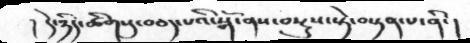།   དེ་ཉིད་ཚིགསུ་བཅད་པའི་སྒོ་ནས་བསྡུས་ཏེ་བསྟན་པ་ནི་།
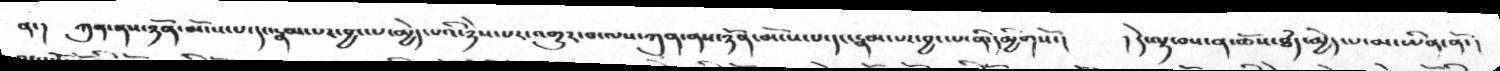ན་།   ཀུན་ནས་ཉོན་མོངས་པ་དང་རྣམ་པར་བྱང་པ་མྱེད་པའི་ཉེས་པར་འགྱུར་བ་ལས་ཀུན་ནས་ཉོན་མོངས་པ་དང་རྣམ་པར་བྱང་པ་ནི་དམྱིགསོ་།   ། དེ་ལྟ་བས་ན་ཆོས་ཐཾད་མྱེད་པ་མ་ཡིན་ནོ་།
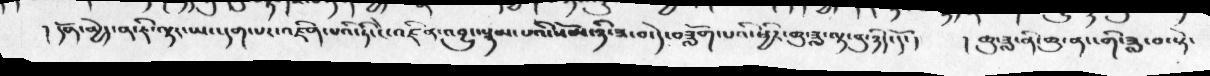། དོན་མྱེད་ན་ཇི་ལྟར་ཡང་དག་པར་འཛིན་པའི་ཏི་ངེ་འཛིན་འབྱུང་སྙམ་པའི་སོམ་ཉི་ཟ་བ་དེ་བཟློག་པའི་ཕྱིར་ཆུ་ཟླ་ལྟ་བུ་ཉིད་དོ་།  ། ཆུ་ཟླ་ནི་ཆུ་ནང་གི་ཟླ་བ་སྟེ་
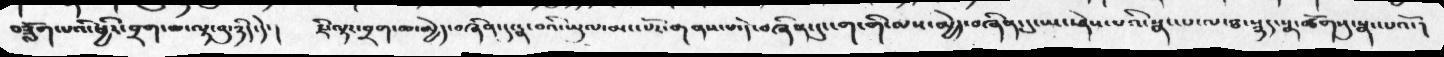བཟློག་པའི་ཕྱིར་བྲག་ཆ་ལྟ་བུ་ཉིད་དེ་།  ཇི་ལྟར་བྲག་ཆ་མྱེད་བཞིན་དུ་རྣ་བའི་ཡུལ་མང་པོར་གནས་པ་དེ་བཞིན་དུ་ངག་གི་ལས་མྱེད་བཞིན་དུ་ཡང་ཤེས་པའི་སྣང་པ་ལ་ཐ་སྙད་སྣ་ཚོགསུ་སྣང་པའོ་།
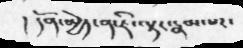། དོན་མྱེད་ན་ཇི་ལྟར་རྣམ་པར་
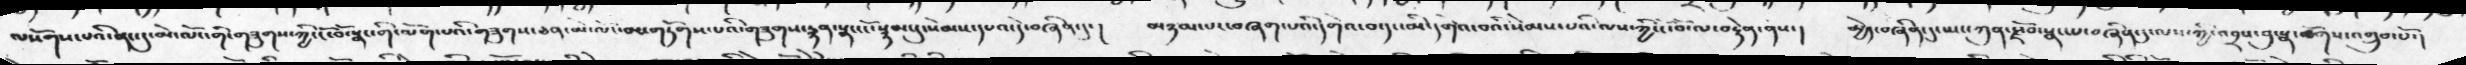ལསོགས་པའི་ནང་དུ་མེ་ལོང་གི་གཟུགས་ཀྱི་ངོ་བོ་སྣང་གི་ལོག་པའི་གཟུགས་ཅན་མེ་ལོང་མ་གཏོགས་པའི་གཟུགས་རྙན་སྣང་ངོ་སྙམ་དུ་སེམས་དཔའ་དེ་བཞིན་དུ་།  མཉམ་པར་བཞག་པའི་དགེའ་བ་དང་མི་དགེའ་བའི་སེམས་པའི་ལས་ཀྱི་ངོ་བོ་ལ་བརྟེན་ནས་།  མྱེད་བཞིན་དུ་ཡང་ཀུན་རྫོབ་སྣང་པ་བཞིན་དུ་ལས་ཀྱི་འབྲས་བུ་སྣ་ཚོགས་འགྲུབ་པོ་།
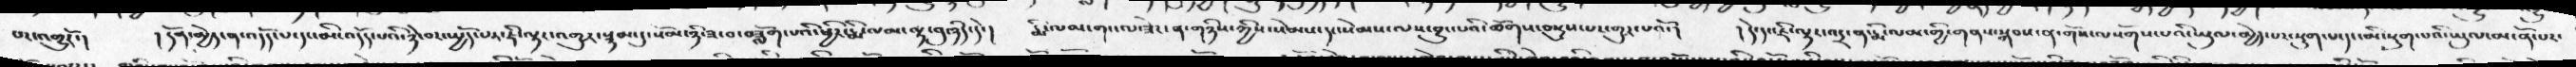པར་འགྱུརོ་།    ། དོན་མྱེད་ན་འདོད་པ་དང་མི་འདོད་པའི་ཉེ་བར་སྤྱོད་པར་ཇི་ལྟར་འགྱུར་སྙམ་དུ་སོམ་ཉི་ཟ་བ་བཟློག་པའི་ཕྱིར་རྨི་ལམ་ལྟ་བུ་ཉིད་དེ་།   རྨི་ལམ་གང་ལ་ཟེར་ན་གཉིས་ཀྱིས་སེམས་དང་སེམས་ལས་བྱུང་པའི་ཚོགས་བསྡུས་པར་གྱུར་པའོ་།    ། དེ་དང་ཇི་ལྟར་འདྲ་ན་རྨི་ལམ་གྱི་གནས་སྐབས་ན་གོས་ལ་སོགས་པའི་ཡུལ་མྱེད་པར་སྡུག་པ་དང་མི་སྡུག་པའི་ཡུལ་མངོན་པར་
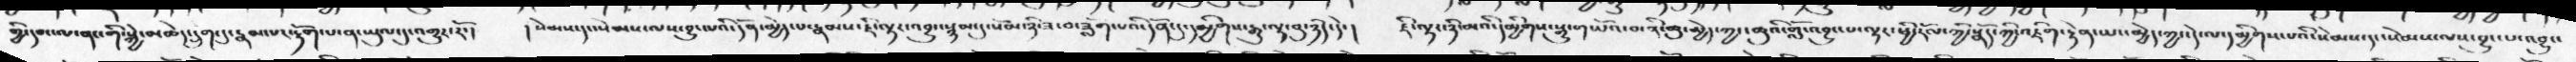གྱི་དབང་ལ་ནང་གི་སྐྱེ་མཆེད་དྲུག་དུ་རྣམ་པར་རྟོག་པ་ན་ཡུལ་དུ་འགྱུར་རོ་།    །སེམས་དང་སེམས་ལས་བྱུང་པའི་དོན་མྱེད་པ་རྣམ་པ་ཇི་ལྟར་འབྱུང་སྙམ་དུ་སོམ་ཉི་ཟ་བ་ཟློག་པའི་དོན་དུ་དམྱིགས་རྒྱུ་ལྟ་བུ་ཉིད་དེ་།    ཇི་ལྟར་ཉི་མའི་དམྱིགས་རྒྱུ་གཡོའ་བ་ནི་ཆུ་མྱེད་ཀྱང་ཆུའི་གློ་འབྱུང་པ་ལྟར་ཕྱི་རོལ་ཀྱི་སྣོད་ཀྱི་འཇིག་རྟེན་ཡང་མྱེད་ཀྱང་དེ་ལ་དམྱིགས་པའི་སེམས་དང་སེམས་ལས་བྱུང་པའབྱུང་
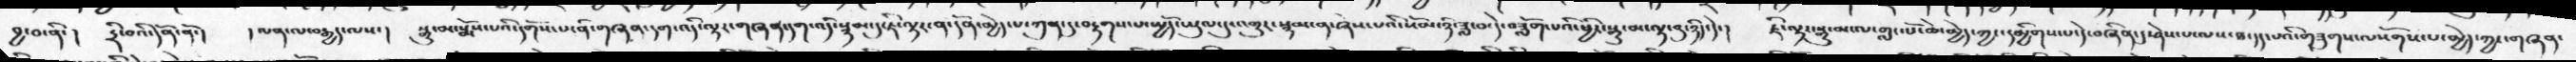བྱ་བ་ནི་།   དྲི་བའི་དོན་ནོ་།   ། ལན་ལ་བརྒྱད་ལས་།   སྒྱུ་མ་སྨོས་པའི་དགོས་པ་ནི་གཞན་དག་འདི་ལྟར་གཞན་དག་འདི་སྙམ་དུ་ཇི་ལྟར་ན་དོན་མྱེད་པ་ཀུན་དུ་བརྟགས་པ་སྤྱོད་ཡུལ་དུ་འགྱུར་སྙམ་ན་ཞེས་པའི་སོམ་ཉི་ཟླ་བ་དེ་བཟློག་པའི་ཕྱིར་སྒྱུ་མ་ལྟ་བུ་ཉིད་དེ་།   ཇི་ལྟར་སྒྱུ་མ་ལ་གླང་པོ་ཆེ་མྱེད་ཀྱང་དམྱིགས་པ་དེ་བཞིན་དུ་ཤེས་པ་ལས་ཐ་དད་པའི་གཟུགས་ལསོགས་པ་མྱེད་ཀྱང་གཞན་
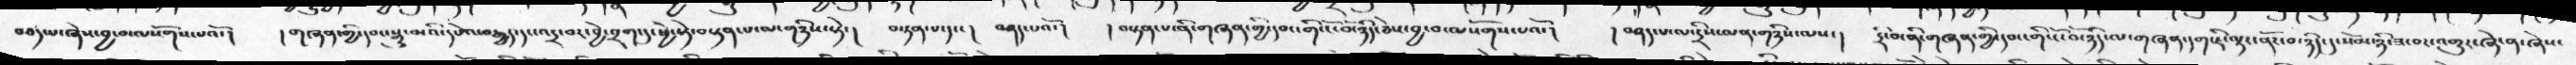བཅད་པ་ཞེས་བྱ་བ་ལསོགས་པའོ་།    ། གཞན་གྱི་དབང་སྒྱུ་མའི་དཔེའ་བརྒྱད་དང་འདྲ་བར་བྱེ་བྲག་དུ་ཕྱེ་སྟེ་བསྟན་པ་ལ་གཉིས་སྟེ་།   བསྟན་པ་དང་།  བཤད་པའོ་།   ། བསྟན་པ་ནི་གཞན་གྱི་དབང་གི་ངོ་བོ་ཉིད་ཅེས་བྱ་བ་ལསོགས་པའོ་།    ། བཤད་པ་ལ་དྲིས་ལན་གཉིས་ལས་།   དྲི་བ་ནི་གཞན་གྱི་དབང་གི་ངོ་བོ་ཉིད་ལ་གཞན་དག་ཇི་ལྟར་ནོར་བ་ཉིད་དུ་སོམ་ཉི་ཟ་བར་འགྱུར་ཞེ་ན་ཞེས་
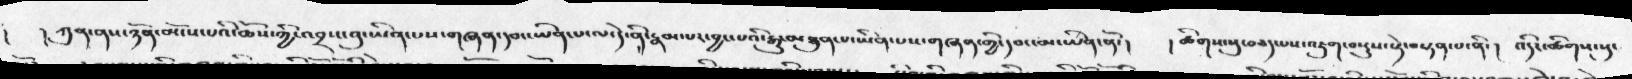།  ། ཀུན་ནས་ཉོན་མོངས་པའི་ཆོས་ཀྱི་འབྲས་བུ་ཡིན་པས་གཞན་དབང་་ཡིན་པ་ལ་དེ་ནི་རྣམ་པར་བྱང་པའི་སྒྱུ་མཐུན་པ་ཡིན་པས་གཞན་གྱི་དབང་མ་ཡིན་ནོ་།  ། ཚིགས་སུ་བཅད་པས་འཇུག་བསྡུས་སྟེ་བསྟན་པ་ནི་།  འདི་ཚིགས་སུ་
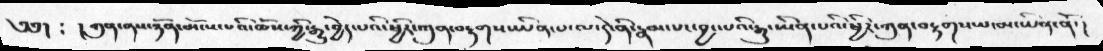༄༅།  ༴ ། ཀུན་ནས་ཉོན་མོངས་པའི་ཆོས་ཀྱི་རྒྱུ་བྱེད་པའི་ཕྱིར་ཀུན་བརྟགས་ཡིན་པ་ལ་དེ་ནི་རྣམ་པར་བྱང་པའི་རྒྱུ་ཡིན་པའི་ཕྱིར་ཀུན་བརྟགས་པ་མ་ཡིན་ནོ་།
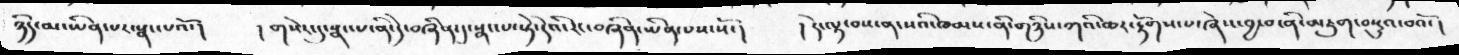ཉིད་མ་ཡིན་པར་སྣང་པའོ་།  ། གསེར་དུ་སྣང་པ་ནི་དེ་བཞིན་དུ་སྣང་པ་སྟེ་དེའི་རང་བཞིན་ཡིན་པས་སོ་།   ། དེ་ལྟ་བས་ན་སའི་ཁམས་ནི་གཉིས་ཀའི་ཆར་རྟོགས་པ་ཞེས་བྱ་བ་ནི་མཇུག་བསྡུའ་བའོ་།
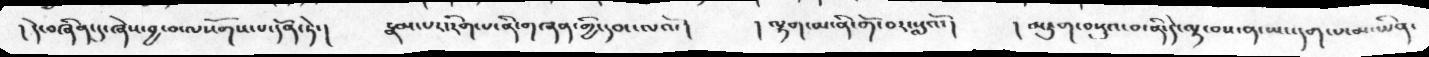། དེ་བཞིན་དུ་ཞེས་བྱ་བ་ལསོགས་པ་དོན་ཏེ་།   རྣམ་པར་རིག་པ་ནི་གཞན་གྱི་དབང་ལའོ་།  ། ལྷག་མ་ནི་གོ་བར་སླའོ་།  ། མཇུག་བསྡུའ་བ་ནི་དེ་ལྟ་བས་ན་ཡང་དག་པ་མ་ཡིན་
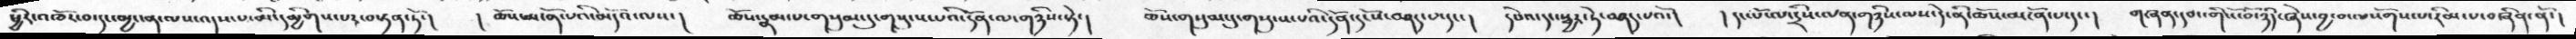ཕྱིར་འཁོར་བ་དང་མྱ་ངན་ལས་འདས་པ་མི་དམྱིགས་པར་བསྟན་ཏོ་།   །ཆོས་མངོན་པའི་མདོའ་ལས་།  ཆོས་རྣམ་པ་གསུམ་དུ་གསུངས་པའི་དོན་ལ་གཉིས་སྟེ་།  ཆོས་གསུམ་དུ་གསུངས་པའི་དོན་དངོས་བཤད་པ་དང་།  དཔེའ་དང་སྦྱར་ཏེ་བཤད་པའོ་།  ། དང་པོ་ལ་དྲིས་ལན་གཉིས་ལས་དེ་ནི་ཆོས་མངོན་པ་དང་།  གཞན་དབང་གི་ངོ་བོ་ཉིད་ཞེས་བྱ་བ་ལསོགས་པ་རིམ་པ་བཞིན་ནོ་།
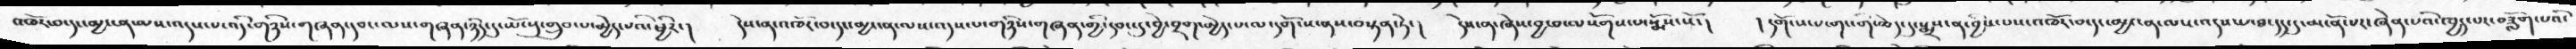འཁོར་བ་དང་མྱ་ངན་ལས་འདས་པ་འདི་གཉིས་གཞན་དབང་ལས་གཞན་ཉིད་དུ་ཡོངསུ་གྲུབ་པ་མྱེད་པའི་ཕྱིར་།  དེས་ན་འཁོར་བ་དང་མྱ་ངན་ལས་འདས་པ་གཉིས་གཞན་གྱི་དབང་དུ་བྱེ་བྲག་མྱེད་པ་ལ་དགོངས་ནས་བསྟན་ཏེ་།  དེས་ན་ཞེས་བྱ་བ་ལསོགས་པ་སྨོས་སོ་།  །དགོངས་པ་གང་གི་ཆེད་དུ་སྨྲས་ན་བྱིས་པས་འཁོར་བ་དང་མྱ་ངན་ལས་འདས་པ་ཐ་དད་དུ་མངོན་པར་ཞེན་པའི་ཁྱད་པར་བཟློག་པའི་
